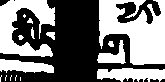མིད ག
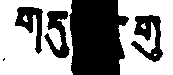གདུ གུ
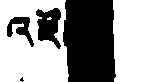འཛོ
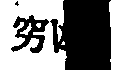穷
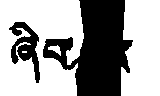ཞིབ
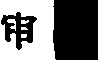审
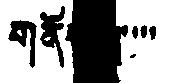གནོ་་་
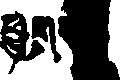ཕྱག
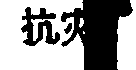抗灾
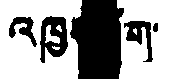འཁྱ  ག་
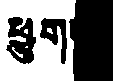ཕྱུག
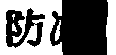防凍
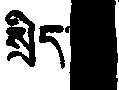སྲིད
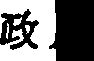政府
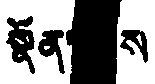སྣོན་ ས་
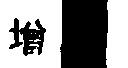增
